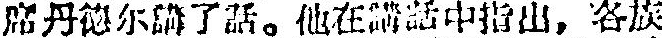席丹德尔講了話。他在講話中指出，各族
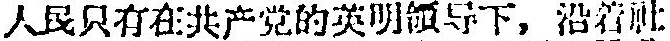人民只有在共产党的英明領导下，沿着社
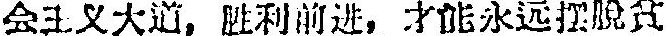会主义大道，胜利前进，才能永远摆脫貧
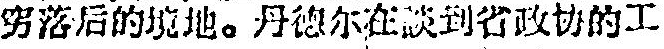穷落后的境地。丹德尔在談到省政协的工
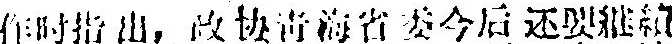作时指出，政协靑海省委今后还要継續
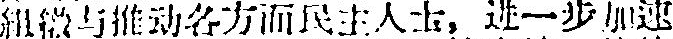組織与推动各方面民主人士，进一步加速
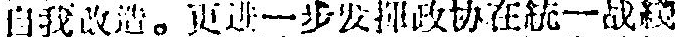自我改造。更进一步发揮政协在統一战綫
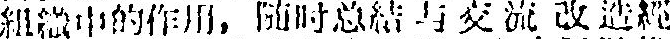組織中的作用，随时总結与交流改造經
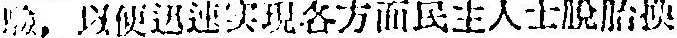驗，以便迅速实現各方面民主人士脫胎換
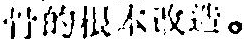骨的根本改造。
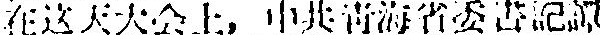在这天大会上，中共靑海省委書記譚
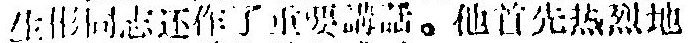生彬同志还作了重要講話。他首先热烈地
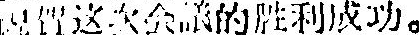祝賀这次会議的胜利成功。
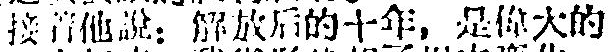接着他說：解放后的十年，是偉大的
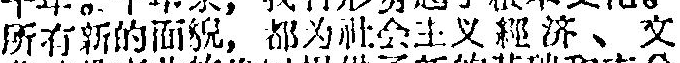所有新的面貌，都为社会主义經济、文
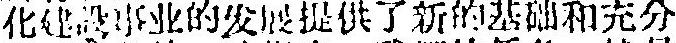化建設事业的发展提供了新的基础和充分
